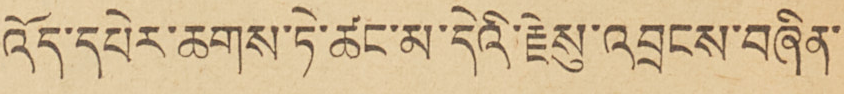འོད་དཔེར་ཆགས་ཏེ་ཚང་མ་དེའི་རྗེསུ་འབྲངས་བཞིན་
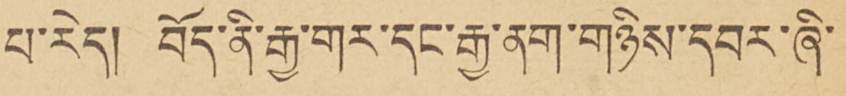པ་རེད། བོད་ནི་རྒྱ་གར་དང་རྒྱ་ནག་གཉིས་དབར་ཞི་
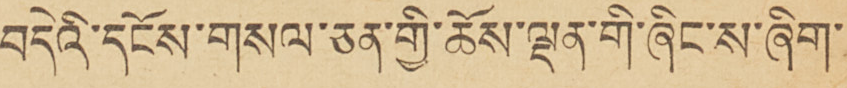བདེའི་དངོས་གསལ་ཅན་གྱི་ཆོས་ལྡན་གི་ཞིང་ས་ཞིག་
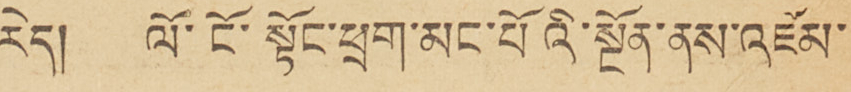རེད། ལོ་ངོ་སྟོང་ཕྲག་མང་པོའི་སྔོན་ནས་འཛམ་
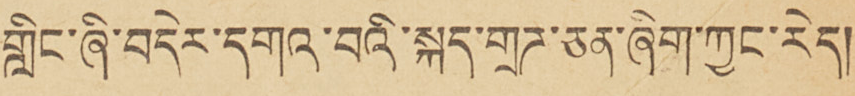གླིང་ཞི་བདེར་དགའ་བའི་སྐད་གྲཊ་ཅན་ཞིག་ཀྱང་རེད།
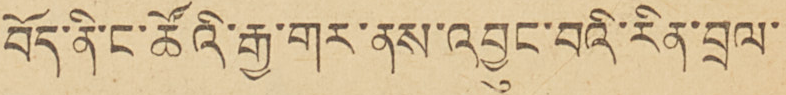བོད་ནི་ང་ཚོའི་རྒྱ་གར་ནས་འབྱུང་བའི་རིན་བྲལ་
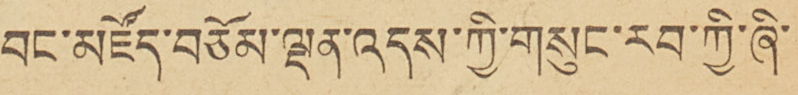བང་མཛོད་བཅོམ་ལྡན་འདས་ཀྱི་གསུང་རབ་ཀྱི་ཞི་
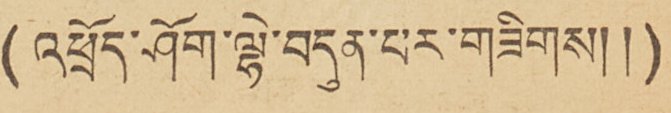(འཕྲོད་ཤོག་ལྷེ་བདུན་པར་གཟིགས།།)
